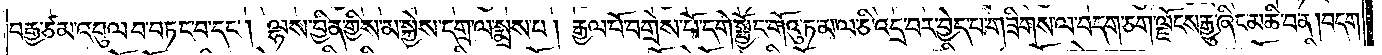བརྒྱ་ཙམ་འབུལ་བ་བཏང་བ་དང༌། ལྷས་བྱིན་གྱིས་མ་སྐྱེས་དགྲ་ལ་སྨྲས་པ། རྒྱལ་པོ་བགྲེས་པོ་དགེ་སྦྱོང་གོའུ་ཏ་མ་ལ་ཅི་འདྲ་བར་བྱེད་པ་གཟིགས་ལ་བདག་ཅག་ལྗོངས་རྒྱུ་ཞིང་མཆི་བ་ན། བདག་
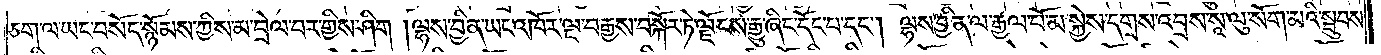ཅག་ལ་ཡང་བསོད་སྙོམས་ཀྱིས་མ་བྲེལ་བར་གྱིས་ཤིག །ལྷས་བྱིན་ཡང་འཁོར་ལྔ་བརྒྱས་བསྐོར་ཏེ་ལྗོངས་རྒྱུ་ཞིང་དོང་པ་དང༌། ལྷས་བྱིན་ལ་རྒྱལ་པོ་མ་སྐྱེས་དགྲས་འབྲས་སཱ་ལུ་སོག་མའི་སྦུབས་
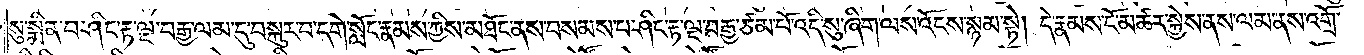སུ་སྨིན་བ་ཤིང་རྟ་ལྔ་བརྒྱ་ལམ་དུ་བསྐུར་བ་དགེ་སློང་རྣམས་ཀྱིས་མཐོང་ནས་བསམས་པ་ཤིང་རྟ་ལྔ་བརྒྱ་ཙམ་པོ་འདི་སུ་ཞིག་ལས་འོངས་སྙམ་སྟེ། དེ་རྣམས་ངོ་མཚར་སྐྱེས་ནས་ལམ་ནས་འགྲོ་
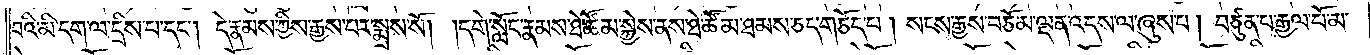བའི་མི་དག་ལ་དྲིས་པ་དང༌། དེ་རྣམས་ཀྱིས་རྒྱས་པར་སྨྲས་སོ། །དགེ་སློང་རྣམས་ཐེ་ཚོམ་སྐྱེས་ནས་ཐེ་ཚོམ་ཐམས་ཅད་གཅོད་པ། སངས་རྒྱས་བཅོམ་ལྡན་འདས་ལ་ཞུས་པ། བཙུན་པ་རྒྱལ་པོ་མ་
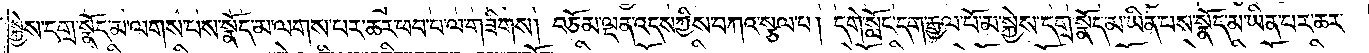སྐྱེས་དགྲ་སྣོད་མ་ལགས་པས་སྣོད་མ་ལགས་པར་ཆར་ཕབ་པ་ལ་གཟིགས། བཅོམ་ལྡན་འདས་ཀྱིས་བཀའ་སྩལ་པ། དགེ་སློང་དག་རྒྱལ་པོ་མ་སྐྱེས་དགྲ་སྣོད་མ་ཡིན་པས་སྣོད་མ་ཡིན་པར་ཆར་
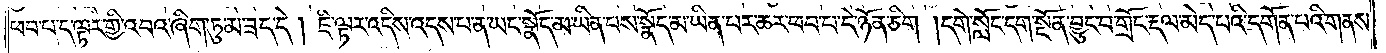ཕབ་པ་ད་ལྟར་གྱི་འབའ་ཞིག་ཏུ་མ་ཟད་དེ། ཇི་ལྟར་འདིས་འདས་པ་ན་ཡང་སྣོད་མ་ཡིན་པས་སྣོད་མ་ཡིན་པར་ཆར་ཕབ་པ་དེ་ཉོན་ཅིག །དགེ་སློང་དག་སྔོན་བྱུང་བ་གྲོང་རྡལ་མེད་པའི་དགོན་པའི་གནས་
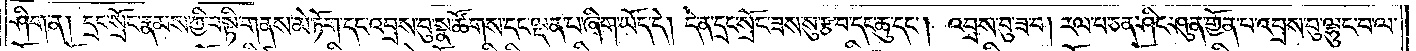ཤིག་ན། དྲང་སྲོང་རྣམས་ཀྱི་བསྟི་གནས་མེ་ཏོག་དང་འབྲས་བུ་སྣ་ཚོགས་དང་ལྡན་པ་ཞིག་ཡོད་དེ། དེ་ན་དྲང་སྲོང་ཟས་སུ་རྩ་བ་དང་ཆུ་དང༌། འབྲས་བུ་ཟ་བ། རལ་པ་ཅན་ཤིང་ཤུན་གྱོན་པ་འབྲས་བུ་ལྷུང་བ་ལ་
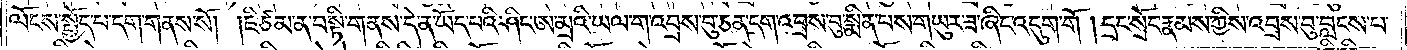ལོངས་སྤྱོད་པ་དག་གནས་སོ། །ཇི་ཙམ་ན་བསྟི་གནས་དེ་ན་ཡོད་པའི་ཤིང་ཨ་མྲའི་ཡལ་ག་འབྲས་བུ་ཅན་དག་འབྲས་བུ་སྨིན་པས་གཡུར་ཟ་ཞིང་འདུག་གོ །དྲང་སྲོང་རྣམས་ཀྱིས་འབྲས་བུ་བླངས་པ་
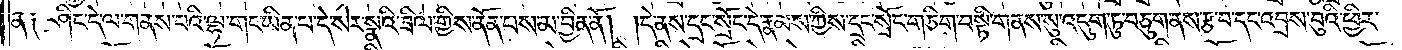ན། ཤིང་དེ་ལ་གནས་པའི་ལྷ་གང་ཡིན་པ་དེ་སེར་སྣའི་ཟིལ་གྱིས་ནོན་པས་མ་བྱིན་ནོ། །དེ་ནས་དྲང་སྲོང་དེ་རྣམས་ཀྱིས་དྲང་སྲོང་གཅིག་བསྟི་གནས་སུ་འདུག་ཏུ་བཅུག་ནས་རྩ་བ་དང་འབྲས་བུའི་ཕྱིར་
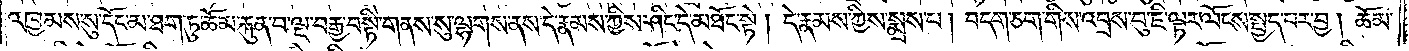འཁྱམས་ས་དོང་མ་ཐག་ཏུ་ཆོམ་རྐུན་པ་ལྔ་བརྒྱ་བསྟི་གནས་སུ་ལྷགས་ནས་དེ་རྣམས་ཀྱིས་ཤིང་དེ་མཐོང་སྟེ། དེ་རྣམས་ཀྱིས་སྨྲས་པ། བདག་ཅག་གིས་འབྲས་བུ་ཇི་ལྟར་ལོངས་སྤྱད་པར་བྱ། ཆོམ་
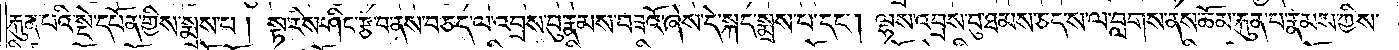རྐུན་པའི་སྡེ་དཔོན་གྱིས་སྨྲས་པ། སྟ་རེས་ཤིང་རྩ་བ་ནས་བཅད་ལ་འབྲས་བུ་རྣམས་བཟའོ་ཞེས་དེ་སྐད་སྨྲས་པ་དང༌། ལྷས་འབྲས་བུ་ཐམས་ཅད་ས་ལ་བླགས་ནས་ཆོམ་རྐུན་པ་རྣམས་ཀྱིས་
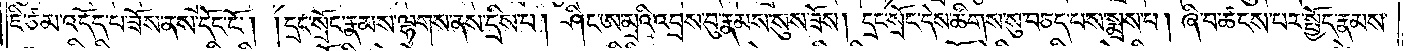ཇི་ཙམ་འདོད་པ་ཟོས་ནས་དོང་ངོ༌། །དྲང་སྲོང་རྣམས་ལྷགས་ནས་དྲིས་པ། ཤིང་ཨ་མྲའི་འབྲས་བུ་རྣམས་སུ་ཟོས། དྲང་སྲོང་དེས་ཚིགས་སུ་བཅད་པས་སྨྲས་པ། ཞི་བ་ཚངས་པར་སྤྱོད་རྣམས་
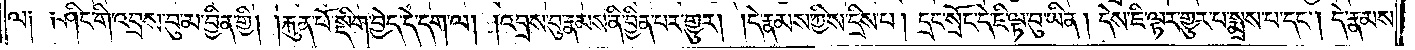ལ༑ ༑ཤིང་གི་འབྲས་བུ་མ་བྱིན་གྱི། །རྐུན་པོ་སྡིག་བྱེད་དེ་དག་ལ། །འབྲས་བུ་རྣམས་ནི་བྱིན་པར་གྱུར། །དེ་རྣམས་ཀྱིས་དྲིས་པ། དྲང་སྲོང་དེ་ཇི་ལྟ་བུ་ཡིན། དེས་ཇི་ལྟར་གྱུར་པ་སྨྲས་པ་དང༌། དེ་རྣམས་
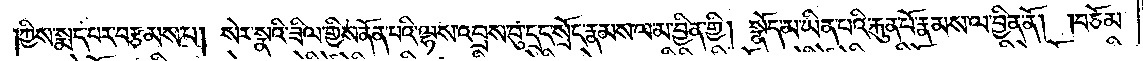ཀྱིས་སྨད་པར་བརྩམས་པ། སེར་སྣའི་ཟིལ་གྱིས་ནོན་པའི་ལྷས་འབྲས་བུ་དྲང་སྲོང་རྣམས་ལ་མ་བྱིན་གྱི། སྣོད་མ་ཡིན་པའི་རྐུན་པོ་རྣམས་ལ་བྱིན་ནོ། །བཅོམ་
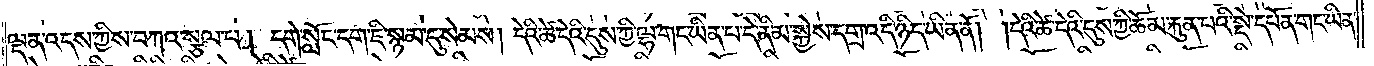ལྡན་འདས་ཀྱིས་བཀའ་སྩལ་པ། དགེ་སློང་དག་ཇི་སྙམ་དུ་སེམས། དེའི་ཚེ་དེའི་དུས་ཀྱི་ལྷ་གང་ཡིན་པ་དེ་ནི་མ་སྐྱེས་དགྲ་འདི་ཉིད་ཡིན་ནོ། །དེའི་ཚེ་དེའི་དུས་ཀྱི་ཆོམ་རྐུན་པའི་སྡེ་དཔོན་གང་ཡིན་
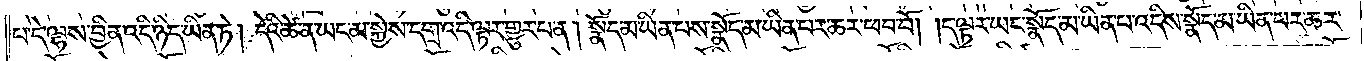པ་དེ་ལྷས་བྱིན་འདི་ཉིད་ཡིན་ཏེ། དེའི་ཚེ་ན་ཡང་མ་སྐྱེས་དགྲ་འདི་ལྟར་གྱུར་པ་ན། སྣོད་མ་ཡིན་པས་སྣོད་མ་ཡིན་པར་ཆར་ཕབ་བོ། །ད་ལྟར་ཡང་སྣོད་མ་ཡིན་པ་འདིས་སྣོད་མ་ཡིན་པར་ཆར་
